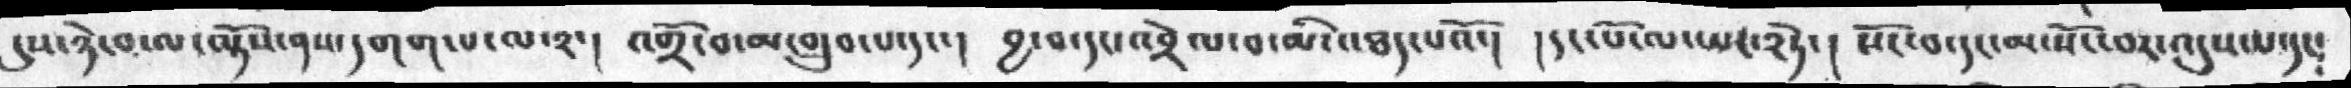དུས་ཉེ་བ་ལ་ལྟོས་ནས་དགག་པ་ལ་༢་།   འགྲོ་བ་མ་གྲུབ་པ་དང་།   བྱ་བ་དང་འབྲེལ་བ་མི་འཐད་པའོ་།  །དང་པོ་ལ་ཡང་༢ཏེ་།  སོང་བ་དང་མ་སོང་བར་འདུས་པ་དང༴
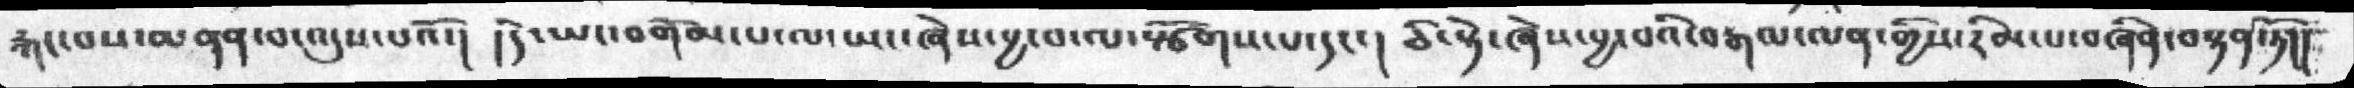རྐང་བས་མནན་བ་འདུས་པའོ་། །དེ་ཡང་བགོམ་པ་ལ་ཡང་ཞེས་བྱ་བ་ལ་སྩོགས་པ་དང་།  ཅི་སྟེ་ཞེས་བྱ་བའི་བརྒལ་ལན་གྱིས་རིམ་པ་བཞིན་བསྟན་ཏོ།།
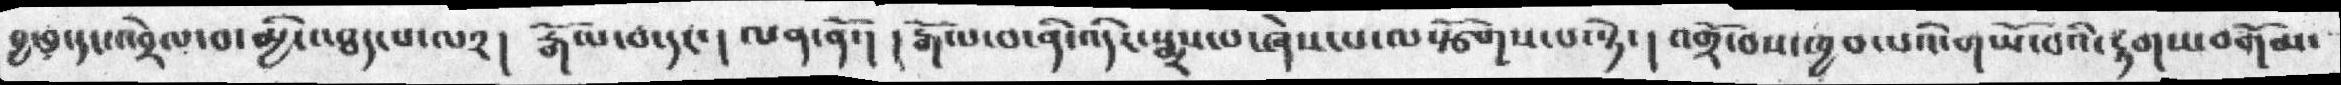བྱ་བ་དང་འབྲེལ་བ་མྱི་འཐད་པ་ལ༢། རྒོལ་བ་དང་། ལན་ནོ་། །རྒོལ་བ་ནི་འདིར་སྨྲས་པ་ཞེས་པ་ལསྩོགས་པ་སྟེ་།  འགྲོ་བས་ཁྱབ་པའི་གཡོ་བའི་རྟགས་བགོམ་
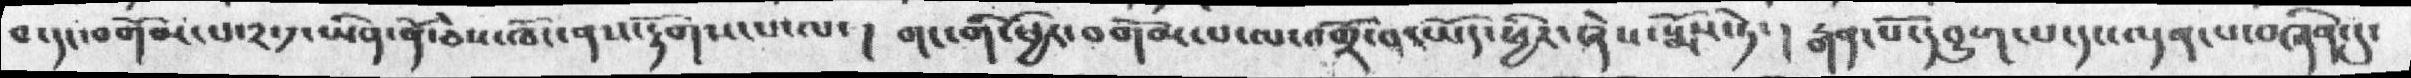བ་དང་བགོམ་པ་༢་༡་ཡིན་ནོ་ཅེས་ཁོང་ནས་རྟོགས་པ་ལ་།  གང་གི་ཕྱིར་བགོམ་པ་ལ་འགྲོ་བ་ཡོད་ཕྱིར་ཞེས་སྨོས་ཏེ་། རྒན་པོ་དབྱུག་པ་དང་ལྡན་པ་བཞིན་དུ་
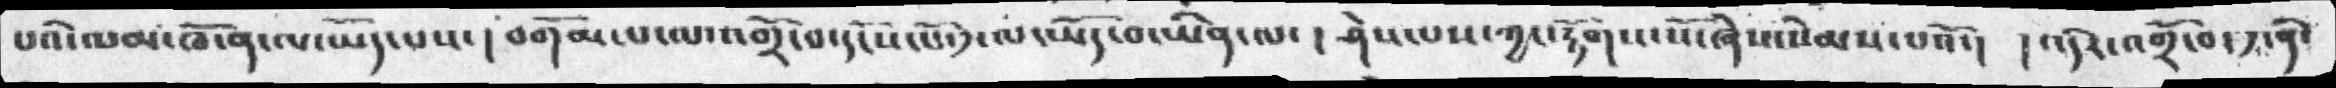པའི་ལམ་ཁོ་ན་ལ་ཡོད་པས་། བགོམ་པ་ལ་འགྲོ་བ་དངོས་པོ་༡་ལ་ཡོད་བ་ཡིན་ལ་། ཤེས་པས་ཀྱང་རྟོགས་སོ་ཞེས་སེམས་པའོ་།  །འདིར་འགྲོ་བ་༡་ནི་
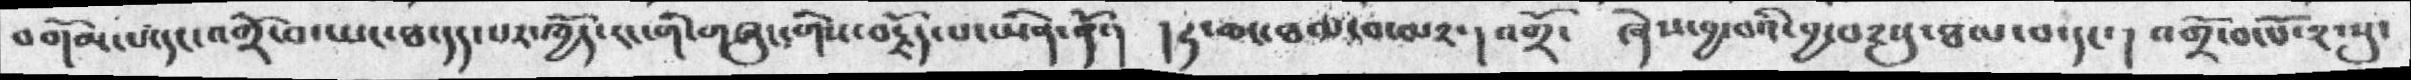བགོམ་པ་དང་འགྲོ་བ་ཡང་ཏ་དད་པར་ཁྱོད་རང་གི་གཞུང་གིས་བརྗོད་པ་ཡིན་ནོ་།  །ཧ་ཆང་ཐལ་བ་ལ༢་། འགྲོ་ ཞེས་བྱ་བའི་བྱ་བ༢སུ་ཐལ་བ་དང་། འགྲོ་བ་པོ་༢་སུ་
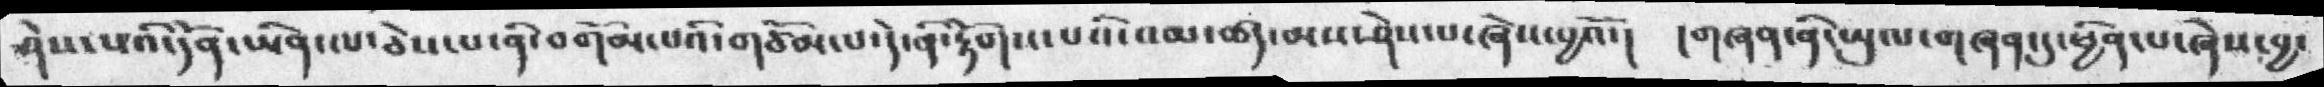ཤེས་པའི་དོན་ཡིན་པ་ཅེས་པ་ནི་བགོམ་པའི་གཙོམ་པ་དེ་ནི་རྟོགས་པའི་འམ་ཚད་མས་ཤེས་པ་ཞེས་བྱའོ་།  །གཞན་ནི་ཡུལ་གཞན་དུ་ཕྱིན་པ་ཞེས་བྱ་
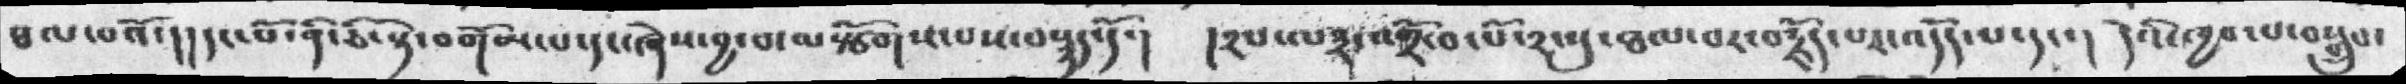ཐལ་པའོ་། །དང་པོ་ནི་ཅི་སྟེ་བགོམ་པ་དང་ཞེས་བྱ་བ་ལསྩོགས་པས་བསྙད་དོ་།  །༢པ་ལ༣་འགྲོ་བ་པོ་༢་སུ་ཐལ་བར་བརྗོད་པར་འདོད་པ་དང་།  དེའི་ཁྱབ་པ་བསྒྲུབ་
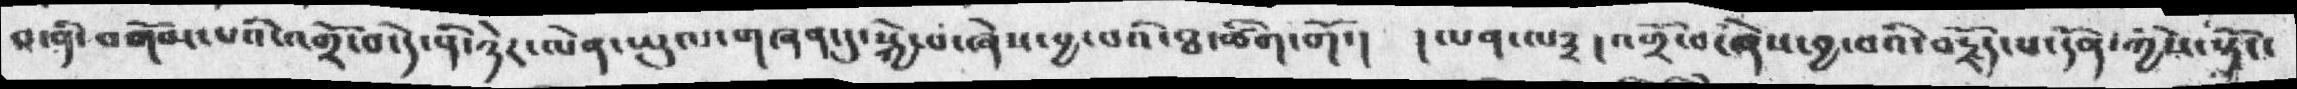བ་ནི་བགོམ་པའི་འགྲོ་བ་དེ་ནི་ཉེར་ལེན་ཡུལ་གཞན་དུ་སྐྱེ་བ་ཞེས་བྱ་བའི་ཐ་ཚིག་གོ་།  །ལན་ལ༣། འགྲོ་བ་ཞེས་བྱ་བའི་བརྗོད་པ་དོན་ཀྱིས་སྟོང་
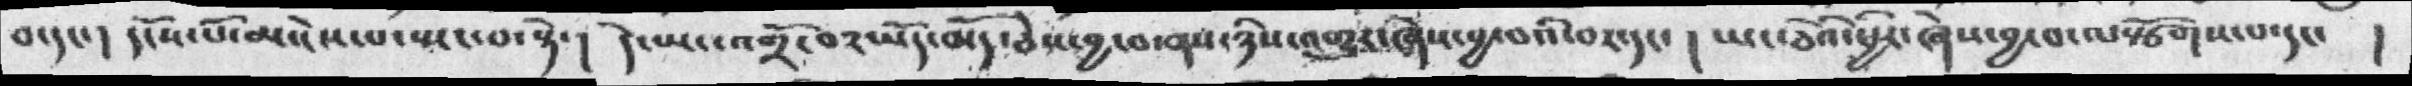བ་དང་། དངོས་པོ་མ་ངེས་པ་སྤང་བ་སྟེ་།  དེ་ཡང་འགྲོ་བ༢་ཡོད་མོད་ཅེས་བྱ་བ་ནས་ཉིས་འགྱུར་ཞེས་བྱ་བའི་བར་དང་།  ཡང་ཅིའི་ཕྱིར་ཞེས་བྱ་བ་ལསྩོགས་པ་དང་  །
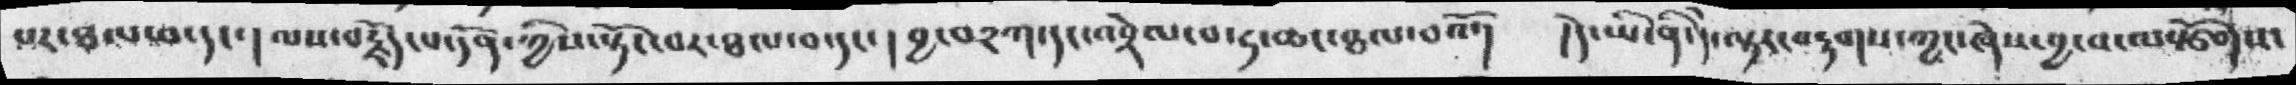པར་ཐལ་བ་དང་། ལས་བརྗོད་པ་དོན་ཀྱིས་སྟོང་བར་ཐལ་བ་དང་།  བྱ་བ༢ཀ་དང་འབྲེལ་བ་ཧ་ཆང་ཐལ་བའོ་།  །དེ་ཡི་ནི་དེ་ལྟར་བརྟགས་ཀྱང་ཞེས་བྱ་བ་ལསྩོགས་
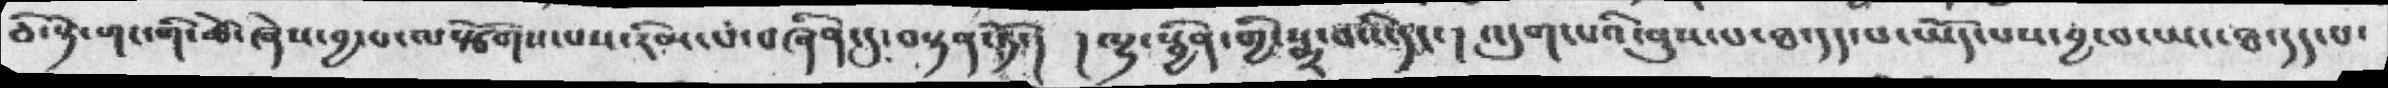ཅི་སྟེ་གང་གི་ཚེ་ཞེས་བྱ་བ་ལསྩོགས་པས་རིམ་པ་བཞིན་དུ་བསྟན་ཏོ་།  །ལྷ་སྦྱིན་གྱི་སྨྲ་བའི་དང་། འདུག་པའི་ནུས་པ་ཐ་དད་པ་ཡོད་པས་བྱ་བ་ཡང་ཐ་དད་པ་
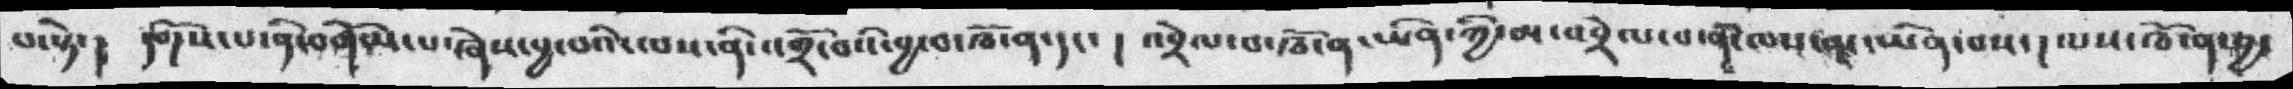པ་སྟེ་།  དགོས་པ་ནི་བགོམ་པ་ཞེས་བྱ་བའི་ལས་ནི་འགྲོ་བའི་བྱ་བ་ཁོ་ན་དང་།  འབྲེལ་བ་ཁོ་ན་ཡིན་ཀྱི་མ་འབྲེལ་བ་ནི་ལས་མ་ཡིན་པས་།  ལས་ཁོ་ན་བྱ་
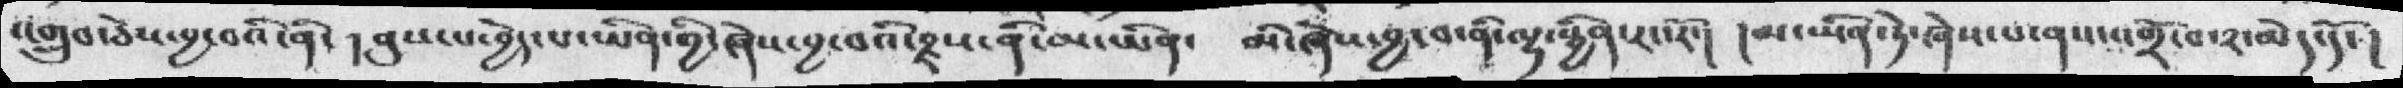འགྲུབ་ཅེས་བྱ་བའི་ནི་། ནུས་པ་བྱེད་པ་ཡིན་གྱི་ཞེས་བྱ་བའི་རྫས་ནི་མ་ཡིན་  མི་ཞེས་བྱ་བ་ནི་ལྷ་སྦྱིན་རང་རོ་།  །མ་ཡིན་ཏེ་ཞེས་པ་ནས་འགྲོ་བ་༢་མེད་དོ་།
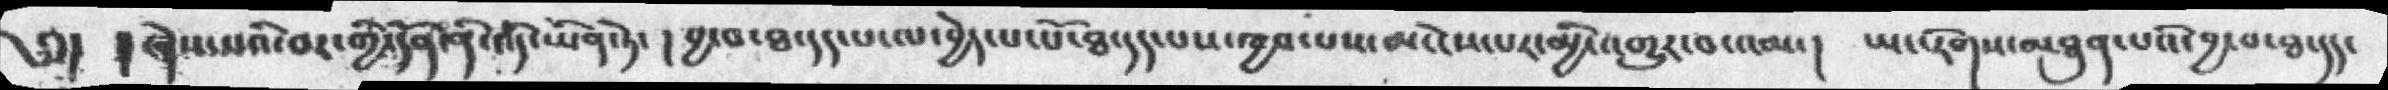༅།      ། ཞེས་པའི་བར་གྱི་དོན་ནི་འདི་ཡིན་ཏེ་  །བྱ་བ་ཐ་དད་པ་ལ་བྱེད་པ་པོ་ཐ་དད་པས་ཁྱབ་པས་མ་ངེས་པར་མྱི་འགྱུར་བ་འམ་།  ཡང་རིགས་མཐུན་པའི་བྱ་བ་ཐ་དད་
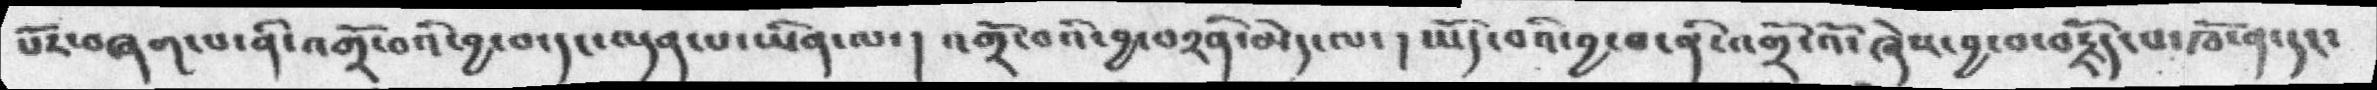པོར་བཞག་པ་ནི་འགྲོ་བའི་བྱ་བ་དང་ལྡན་པ་ཡིན་ལ་།  འགྲོ་བའི་བྱ་བ༢ནི་མད་ལ་། ཡོད་བའི་བྱ་བ་ནི་འགྲོ་འོ་ཞེས་བྱ་བ་བརྗོད་པ་ཁོ་ན་དང་
